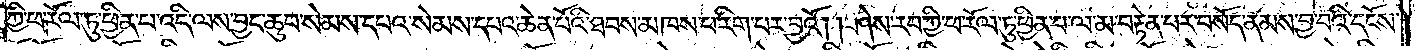ཀྱི་ཕ་རོལ་ཏུ་ཕྱིན་པ་འདི་ལས་བྱང་ཆུབ་སེམས་དཔའ་སེམས་དཔའ་ཆེན་པོའི་ཐབས་མཁས་པ་རིག་པར་བྱའོ། །ཤེས་རབ་ཀྱི་ཕ་རོལ་ཏུ་ཕྱིན་པ་ལ་མ་བརྟེན་པར་བསོད་ནམས་བྱ་བའི་དངོས་
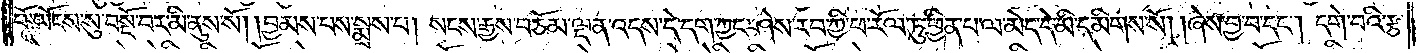པོ་ཡོངས་སུ་བསྔོ་བར་མི་ནུས་སོ། །བྱམས་པས་སྨྲས་པ། སངས་རྒྱས་བཅོམ་ལྡན་འདས་དེ་དག་ཀྱང་ཤེས་རབ་ཀྱི་ཕ་རོལ་ཏུ་ཕྱིན་པ་ལ་མེད་དེ་མི་དམིགས་སོ། །ཞེས་བྱ་བ་དང༌། དགེ་བའི་རྩ་
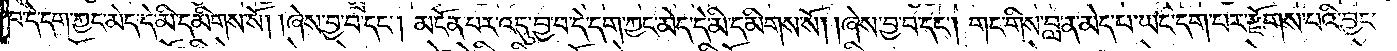བ་དེ་དག་ཀྱང་མེད་དེ་མི་དམིགས་སོ། །ཞེས་བྱ་བ་དང༌། མངོན་པར་འདུ་བྱ་བ་དེ་དག་ཀྱང་མེད་དེ་མི་དམིགས་སོ། །ཞེས་བྱ་བ་དང༌། གང་གིས་བླ་ན་མེད་པ་ཡང་དག་པར་རྫོགས་པའི་བྱང་
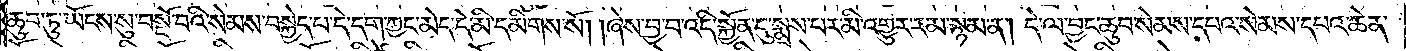ཆུབ་ཏུ་ཡོངས་སུ་བསྔོ་བའི་སེམས་བསྐྱེད་པ་དེ་དག་ཀྱང་མེད་དེ་མི་དམིགས་སོ། །ཞེས་བྱ་བ་འདི་སྐྱོན་དུ་སྨྲས་པར་མི་འགྱུར་རམ་སྙམ་ན། དེ་ལ་བྱང་ཆུབ་སེམས་དཔའ་སེམས་དཔའ་ཆེན་
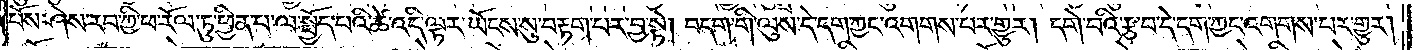པོས་ཤེས་རབ་ཀྱི་ཕ་རོལ་ཏུ་ཕྱིན་པ་ལ་སྤྱོད་པའི་ཚེ་འདི་ལྟར་ཡོངས་སུ་བརྟག་པར་བྱ་སྟེ། བདག་གི་ལུས་དེ་དག་ཀྱང་འགགས་པར་གྱུར། དགེ་བའི་རྩ་བ་དེ་དག་ཀྱང་འགགས་པར་གྱུར།
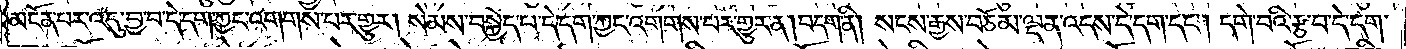མངོན་པར་འདུ་བྱ་བ་དེ་དག་ཀྱང་འགགས་པར་གྱུར། སེམས་བསྐྱེད་པ་དེ་དག་ཀྱང་འགགས་པར་གྱུར་ན། བདག་ནི། སངས་རྒྱས་བཅོམ་ལྡན་འདས་དེ་དག་དང༌། དགེ་བའི་རྩ་བ་དེ་དག་
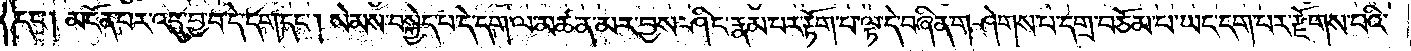དང༌། མངོན་པར་འདུ་བྱ་བ་དེ་དག་དང༌། སེམས་བསྐྱེད་པ་དེ་དག་ལ་མཚན་མར་བྱས་ཤིང་རྣམ་པར་རྟོག་པ་ལྟ་དེ་བཞིན་གཤེགས་པ་དགྲ་བཅོམ་པ་ཡང་དག་པར་རྫོགས་པའི་
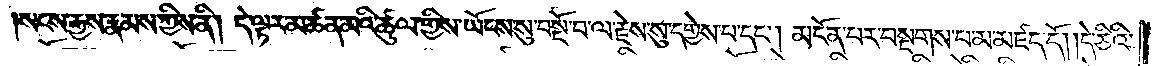སངས་རྒྱས་རྣམས་ཀྱིས་ནི། དེ་ལྟར་མཚན་མའི་ཚུལ་གྱིས་ཡོངས་སུ་བསྔོ་བ་ལ་རྗེས་སུ་དགྱེས་པ་དང༌། མངོན་པར་བསྔགས་པ་མ་མཛད་དོ། །དེ་ཅིའི་
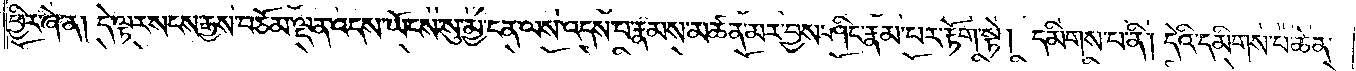ཕྱིར་ཞེ་ན། དེ་ལྟར་སངས་རྒྱས་བཅོམ་ལྡན་འདས་ཡོངས་སུ་མྱ་ངན་ལས་འདས་པ་རྣམས་མཚན་མར་བྱས་ཤིང་རྣམ་པར་རྟོག་སྟེ། དམིགས་པ་ནི། དེའི་དམིགས་པ་ཆེན་
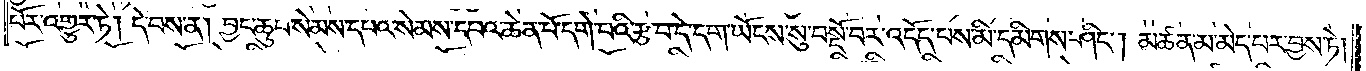པོར་འགྱུར་ཏེ། དེ་བས་ན། བྱང་ཆུབ་སེམས་དཔའ་སེམས་དཔའ་ཆེན་པོ་དགེ་བའི་རྩ་བ་དེ་དག་ཡོངས་སུ་བསྔོ་བར་འདོད་པས་མི་དམིགས་ཤིང༌། མཚན་མ་མེད་པར་བྱས་ཏེ།
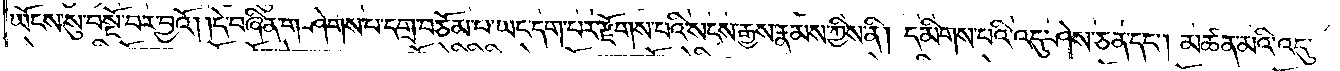ཡོངས་སུ་བསྔོ་བར་བྱའོ། །དེ་བཞིན་གཤེགས་པ་དགྲ་བཅོམ་པ་ཡང་དག་པར་རྫོགས་པའི་སངས་རྒྱས་རྣམས་ཀྱིས་ནི། དམིགས་པའི་འདུ་ཤེས་ཅན་དང༌། མཚན་མའི་འདུ་
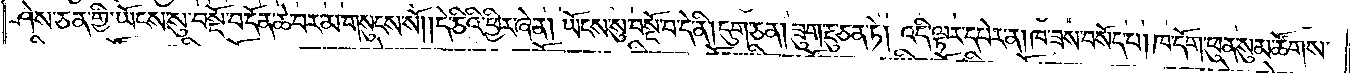ཤེས་ཅན་གྱི་ཡོངས་སུ་བསྔོ་བ་དོན་ཆེ་བར་མ་གསུངས་སོ། །དེ་ཅིའི་ཕྱིར་ཞེ་ན། ཡོངས་སུ་བསྔོ་བ་དེ་ནི། དུག་ཅན། ཟུག་རྔུ་ཅན་ཏེ། འདི་ལྟར་དཔེར་ན། ཁ་ཟས་བསོད་པ། ཁ་དོག་ཕུན་སུམ་ཚོགས་
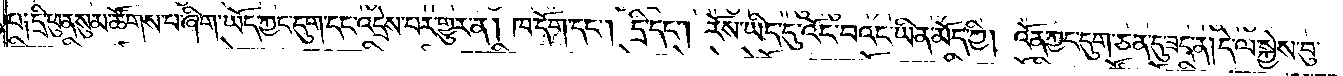པ༑ དྲི་ཕུན་སུམ་ཚོགས་པ་ཞིག་ཡོད་ཀྱང་དུག་དང་འདྲེས་པར་གྱུར་ན། ཁ་དོག་དང༌། དྲི་དང༌། རོས་ཡིད་དུ་འོང་བའང་ཡིན་མོད་ཀྱི། འོན་ཀྱང་དུག་ཅན་དུ་ཟད་ན། དེ་ལ་སྐྱེས་བུ་
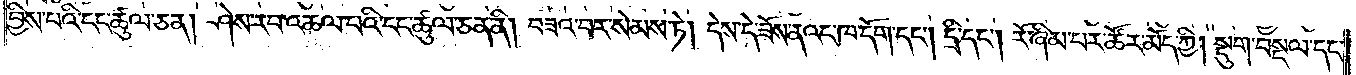བྱིས་པའི་ངང་ཚུལ་ཅན། ཤེས་རབ་འཆལ་བའི་ངང་ཚུལ་ཅན་ནི། བཟའ་བར་སེམས་ཏེ། དེས་དེ་ཟོས་ནའང་ཁ་དོག་དང༌། དྲི་དང༌། རོ་ཞིམ་པར་ཚོར་མོད་ཀྱི། སྡུག་བསྔལ་དང་
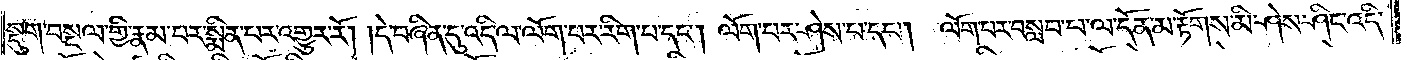སྡུག་བསྔལ་གྱི་རྣམ་པར་སྨིན་པར་འགྱུར་རོ། །དེ་བཞིན་དུ་འདི་ལ་ལོག་པར་རིག་པ་དང༌། ལོག་པར་ཤེས་པ་དང༌། ལོག་པར་བསླབ་པ་ལ་དོན་མ་རྟོགས་མི་ཤེས་ཤིང་འདི་
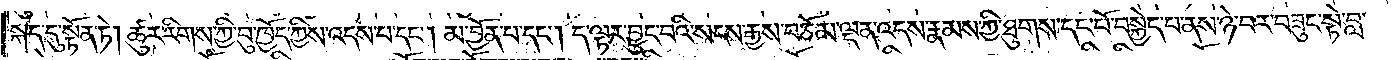སྐད་དུ་སྟོན་ཏེ། ཚུར་རིགས་ཀྱི་བུ་ཁྱོད་ཀྱིས་འདས་པ་དང༌། མ་བྱོན་པ་དང༌། ད་ལྟར་བྱུང་བའི་སངས་རྒྱས་བཅོམ་ལྡན་འདས་རྣམས་ཀྱི་ཐུགས་དང་པོ་བསྐྱེད་པ་ནས་ཉེ་བར་བཟུང་སྟེ་བླ་
